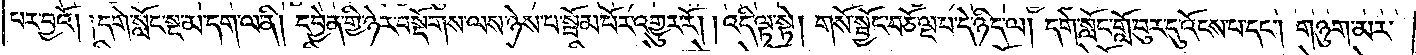བར་བྱའོ། །དགེ་སློང་སྔ་མ་དག་ལ་ནི། དབྱེན་གྱི་ཉེར་བསྡོགས་ལས་ཉེས་པ་སྦོམ་པོར་འགྱུར་རོ། །འདི་ལྟ་སྟེ། གསོ་སྦྱོང་བཅོ་ལྔ་པ་དེ་ཉིད་ལ། དགེ་སློང་གློ་བུར་དུ་འོངས་པ་དང༌། གཉུག་མར་
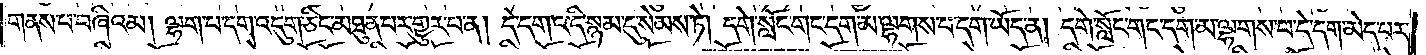གནས་པ་བཞིའམ། ལྷག་པ་དག་འདུག་ཅིང་མཐུན་པར་གྱུར་པ་ན། དེ་དག་འདི་སྙམ་དུ་སེམས་ཏེ། དགེ་སློང་གང་དག་མ་ལྷགས་པ་དག་ཡོད་ན། དགེ་སློང་གང་དག་མ་ལྷགས་པ་དེ་དག་མེད་པར་
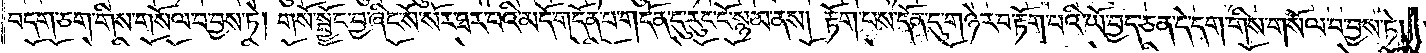བདག་ཅག་གིས་གསོལ་བ་བྱས་ཏེ། གསོ་སྦྱོང་བྱ་ཞིང་སོ་སོར་ཐར་པའི་མདོ་གདོན་པ་གདོན་དུ་རུང་ངོ་སྙམ་ནས། རྟོག་པས་དོན་དུ་གཉེར་བ་རྟོག་པའི་ཡོ་བྱད་ཅན་དེ་དག་གིས་གསོལ་བ་བྱས་ཏེ།
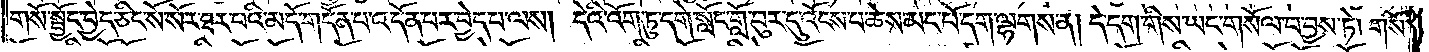གསོ་སྦྱོང་བྱེད་ཅིང་སོ་སོར་ཐར་པའི་མདོ་གདོན་པ་འདོན་པར་བྱེད་པ་ལས། དེའི་འོག་ཏུ་དགེ་སློང་གློ་བུར་དུ་འོངས་པ་ཆེས་མང་པོ་དག་ལྷགས་ན། དེ་དག་གིས་ཡང་གསོལ་བ་བྱས་ཏེ། གསོ་
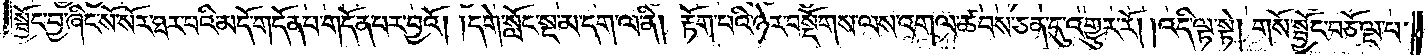སྦྱོང་བྱ་ཞིང་སོ་སོར་ཐར་པའི་མདོ་གདོན་པ་གདོན་པར་བྱའོ། །དགེ་སློང་སྔ་མ་དག་ལ་ནི། རྟོག་པའི་ཉེར་བསྡོགས་ལས་འགལ་ཚབས་ཅན་དུ་འགྱུར་རོ། །འདི་ལྟ་སྟེ། གསོ་སྦྱོང་བཅོ་ལྔ་པ་
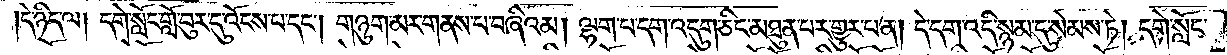དེ་ཉིད་ལ། དགེ་སློང་གློ་བུར་དུ་འོངས་པ་དང༌། གཉུག་མར་གནས་པ་བཞིའམ། ལྷག་པ་དག་འདུག་ཅིང་མཐུན་པར་གྱུར་པ་ན། དེ་དག་འདི་སྙམ་དུ་སེམས་ཏེ། དགེ་སློང་
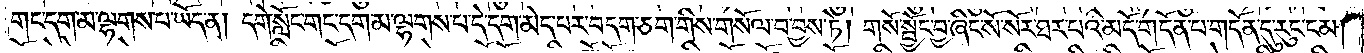གང་དག་མ་ལྷགས་པ་ཡོད་ན། དགེ་སློང་གང་དག་མ་ལྷགས་པ་དེ་དག་མེད་པར་བདག་ཅག་གིས་གསོལ་བ་བྱས་ཏེ། གསོ་སྦྱོང་བྱ་ཞིང་སོ་སོར་ཐར་པའི་མདོ་གདོན་པ་གདོན་དུ་རུང་ངམ།
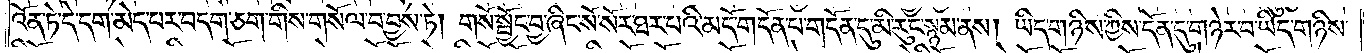འོན་ཏེ་དེ་དག་མེད་པར་བདག་ཅག་གིས་གསོལ་བ་བྱས་ཏེ། གསོ་སྦྱོང་བྱ་ཞིང་སོ་སོར་ཐར་པའི་མདོ་གདོན་པ་གདོན་དུ་མི་རུང་སྙམ་ནས། ཡིད་གཉིས་ཀྱིས་དོན་དུ་གཉེར་བ་ཡིད་གཉིས་
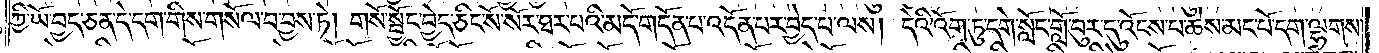ཀྱི་ཡོ་བྱད་ཅན་དེ་དག་གིས་གསོལ་བ་བྱས་ཏེ། གསོ་སྦྱོང་བྱེད་ཅིང་སོ་སོར་ཐར་པའི་མདོ་གདོན་པ་འདོན་པར་བྱེད་པ་ལས། དེའི་འོག་ཏུ་དགེ་སློང་གློ་བུར་དུ་འོངས་པ་ཆེས་མང་པོ་དག་ལྷགས་
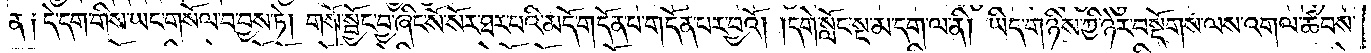ན༑ དེ་དག་གིས་ཡང་གསོལ་བ་བྱས་ཏེ། གསོ་སྦྱོང་བྱ་ཞིང་སོ་སོར་ཐར་པའི་མདོ་གདོན་པ་གདོན་པར་བྱའོ། །དགེ་སློང་སྔ་མ་དག་ལ་ནི། ཡིད་གཉིས་ཀྱི་ཉེར་བསྡོགས་ལས་འགལ་ཚབས་
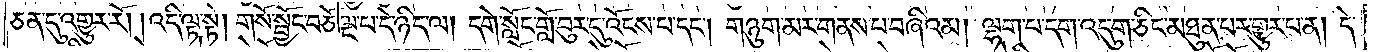ཅན་དུ་འགྱུར་རོ། །འདི་ལྟ་སྟེ། གསོ་སྦྱོང་བཅོ་ལྔ་པ་དེ་ཉིད་ལ། དགེ་སློང་གློ་བུར་དུ་འོངས་པ་དང༌། གཉུག་མར་གནས་པ་བཞིའམ། ལྷག་པ་དག་འདུག་ཅིང་མཐུན་པར་གྱུར་པ་ན། དེ་
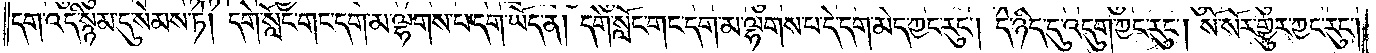དག་འདི་སྙམ་དུ་སེམས་ཏེ། དགེ་སློང་གང་དག་མ་ལྷགས་པ་དག་ཡོད་ན། དགེ་སློང་གང་དག་མ་ལྷགས་པ་དེ་དག་མེད་ཀྱང་རུང༌། དེ་ཉིད་དུ་འདུག་ཀྱང་རུང༌། སོ་སོར་གྱུར་ཀྱང་རུང༌།
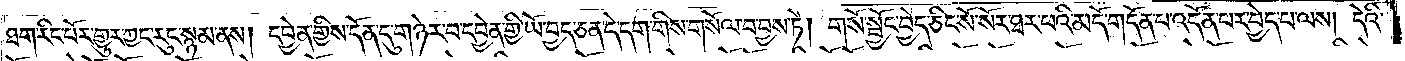ཐག་རིང་པོར་གྱུར་ཀྱང་རུང་སྙམ་ནས། དབྱེན་གྱིས་དོན་དུ་གཉེར་བ་དབྱེན་གྱི་ཡོ་བྱད་ཅན་དེ་དག་གིས་གསོལ་བ་བྱས་ཏེ། གསོ་སྦྱོང་བྱེད་ཅིང་སོ་སོར་ཐར་པའི་མདོ་གདོན་པ་འདོན་པར་བྱེད་པ་ལས། དེའི་
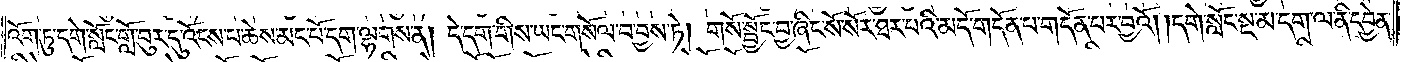འོག་ཏུ་དགེ་སློང་གློ་བུར་དུ་འོངས་པ་ཆེས་མང་པོ་དག་ལྷགས་ན། དེ་དག་གིས་ཡང་གསོལ་བ་བྱས་ཏེ། གསོ་སྦྱོང་བྱ་ཞིང་སོ་སོར་ཐར་པའི་མདོ་གདོན་པ་གདོན་པར་བྱའོ། །དགེ་སློང་སྔ་མ་དག་ལ་ནི་དབྱེན་
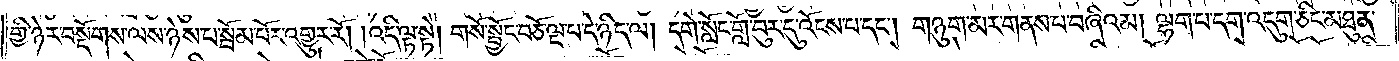གྱི་ཉེར་བསྡོགས་ལས་ཉེས་པ་སྦོམ་པོར་འགྱུར་རོ། །འདི་ལྟ་སྟེ། གསོ་སྦྱོང་བཅོ་ལྔ་པ་དེ་ཉིད་ལ། དགེ་སློང་གློ་བུར་དུ་འོངས་པ་དང༌། གཉུག་མར་གནས་པ་བཞིའམ། ལྷག་པ་དག་འདུག་ཅིང་མཐུན་
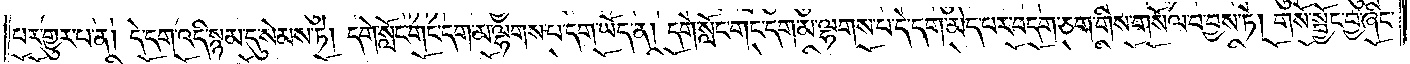པར་གྱུར་པ་ན། དེ་དག་འདི་སྙམ་དུ་སེམས་ཏེ། དགེ་སློང་གང་དག་མ་ལྷགས་པ་དག་ཡོད་ན། དགེ་སློང་གང་དག་མ་ལྷགས་པ་དེ་དག་མེད་པར་བདག་ཅག་གིས་གསོལ་བ་བྱས་ཏེ། གསོ་སྦྱོང་བྱ་ཞིང་
